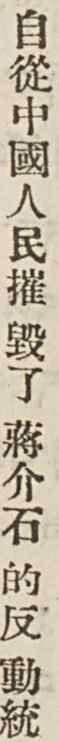自從中國人民摧毀了 蔣介石 的反動統
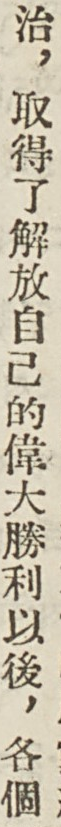治，取得了解放自己的偉大勝利以後，各個
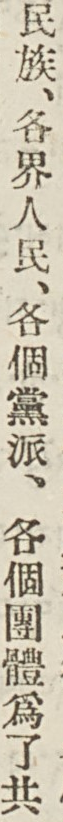民族、各界人民、各個黨派、各個團體爲了共
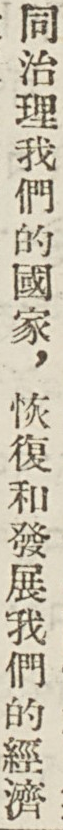同治理我們的國家，回覆和發展我們的經濟
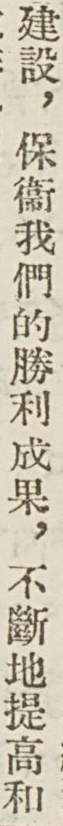建設，保衛我們的勝利成果，不斷地提高和
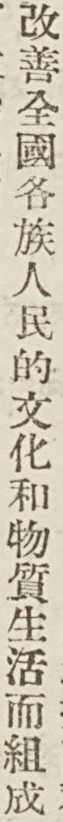改善全國各族人民的文化和物質生活而組成
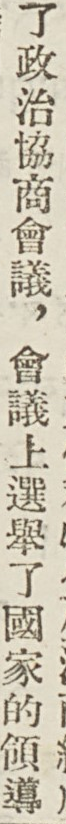了政治協商會議，會議上選舉了國家的領導
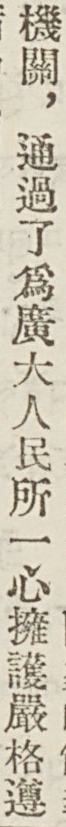機關，通過了爲廣大人民所一心擁護嚴格遵
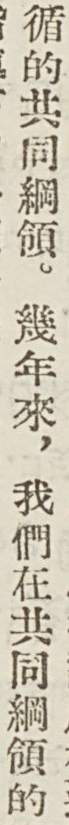循的共同綱領。幾年來，我們在共同綱領的
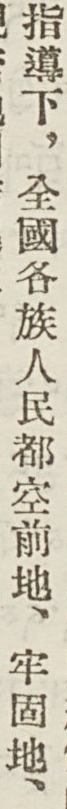指導下，全國各族人民都空前地、牢固地、
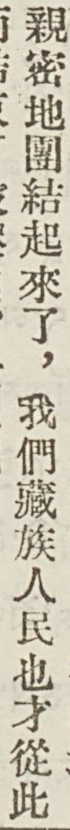親密地團結起來了，我們藏族人民也才從此
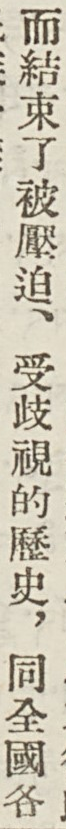而結束了被壓迫、受歧視的歷史，同全國各
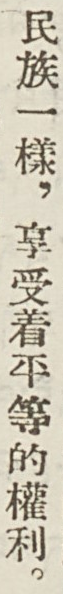民族一樣，享受着平等的權利。
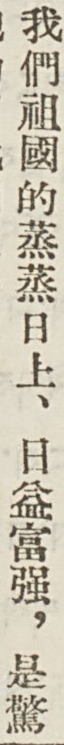我們祖國的蒸蒸日上、日益富強，是驚
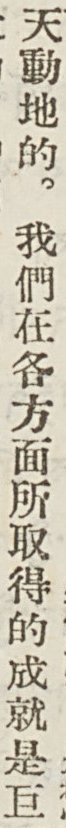天動地的。我們在各方面所取得的成就是巨
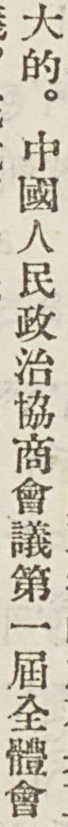大的。中國人民政治協商會議第一屆全體會
